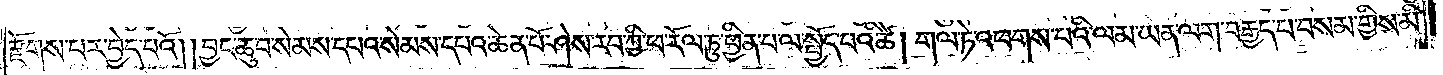རྫོགས་པར་བྱེད་པའོ། །བྱང་ཆུབ་སེམས་དཔའ་སེམས་དཔའ་ཆེན་པོ་ཤེས་རབ་ཀྱི་ཕ་རོལ་ཏུ་ཕྱིན་པ་ལ་སྤྱོད་པའི་ཚེ། གལ་ཏེ་འཕགས་པའི་ལམ་ཡན་ལག་བརྒྱད་པ་བསམ་གྱིས་མི་
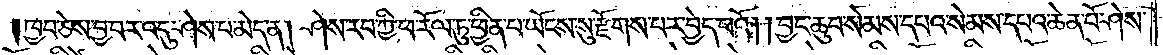ཁྱབ་ཅེས་བྱ་བར་འདུ་ཤེས་པ་མེད་ན། ཤེས་རབ་ཀྱི་ཕ་རོལ་ཏུ་ཕྱིན་པ་ཡོངས་སུ་རྫོགས་པར་བྱེད་པའོ། །བྱང་ཆུབ་སེམས་དཔའ་སེམས་དཔའ་ཆེན་པོ་ཤེས་
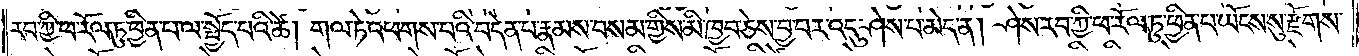རབ་ཀྱི་ཕ་རོལ་ཏུ་ཕྱིན་པ་ལ་སྤྱོད་པའི་ཚེ། གལ་ཏེ་འཕགས་པའི་བདེན་པ་རྣམས་བསམ་གྱིས་མི་ཁྱབ་ཅེས་བྱ་བར་འདུ་ཤེས་པ་མེད་ན། ཤེས་རབ་ཀྱི་ཕ་རོལ་ཏུ་ཕྱིན་པ་ཡོངས་སུ་རྫོགས་
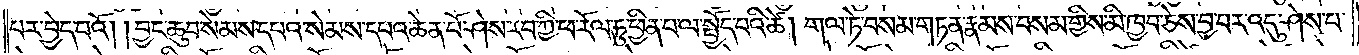པར་བྱེད་པའོ། །བྱང་ཆུབ་སེམས་དཔའ་སེམས་དཔའ་ཆེན་པོ་ཤེས་རབ་ཀྱི་ཕ་རོལ་ཏུ་ཕྱིན་པ་ལ་སྤྱོད་པའི་ཚེ། གལ་ཏེ་བསམ་གཏན་རྣམས་བསམ་གྱིས་མི་ཁྱབ་ཅེས་བྱ་བར་འདུ་ཤེས་པ་
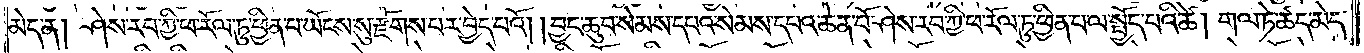མེད་ན། ཤེས་རབ་ཀྱི་ཕ་རོལ་ཏུ་ཕྱིན་པ་ཡོངས་སུ་རྫོགས་པར་བྱེད་པའོ། །བྱང་ཆུབ་སེམས་དཔའ་སེམས་དཔའ་ཆེན་པོ་ཤེས་རབ་ཀྱི་ཕ་རོལ་ཏུ་ཕྱིན་པ་ལ་སྤྱོད་པའི་ཚེ། གལ་ཏེ་ཚད་མེད་
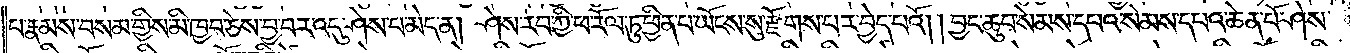པ་རྣམས་བསམ་གྱིས་མི་ཁྱབ་ཅེས་བྱ་བར་འདུ་ཤེས་པ་མེད་ན། ཤེས་རབ་ཀྱི་ཕ་རོལ་ཏུ་ཕྱིན་པ་ཡོངས་སུ་རྫོགས་པར་བྱེད་པའོ། །བྱང་ཆུབ་སེམས་དཔའ་སེམས་དཔའ་ཆེན་པོ་ཤེས་
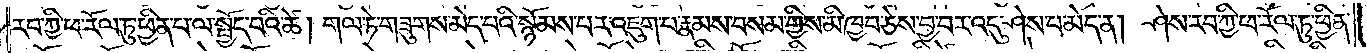རབ་ཀྱི་ཕ་རོལ་ཏུ་ཕྱིན་པ་ལ་སྤྱོད་པའི་ཚེ། གལ་ཏེ་གཟུགས་མེད་པའི་སྙོམས་པར་འཇུག་པ་རྣམས་བསམ་གྱིས་མི་ཁྱབ་ཅེས་བྱ་བར་འདུ་ཤེས་པ་མེད་ན། ཤེས་རབ་ཀྱི་ཕ་རོལ་ཏུ་ཕྱིན་
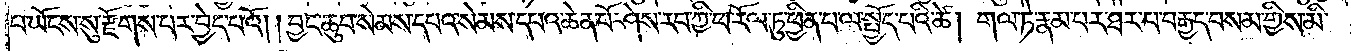པ་ཡོངས་སུ་རྫོགས་པར་བྱེད་པའོ། །བྱང་ཆུབ་སེམས་དཔའ་སེམས་དཔའ་ཆེན་པོ་ཤེས་རབ་ཀྱི་ཕ་རོལ་ཏུ་ཕྱིན་པ་ལ་སྤྱོད་པའི་ཚེ། གལ་ཏེ་རྣམ་པར་ཐར་པ་བརྒྱད་བསམ་གྱིས་མི་
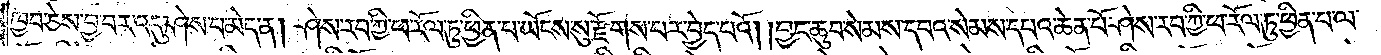ཁྱབ་ཅེས་བྱ་བར་འདུ་ཤེས་པ་མེད་ན། ཤེས་རབ་ཀྱི་ཕ་རོལ་ཏུ་ཕྱིན་པ་ཡོངས་སུ་རྫོགས་པར་བྱེད་པའོ། །བྱང་ཆུབ་སེམས་དཔའ་སེམས་དཔའ་ཆེན་པོ་ཤེས་རབ་ཀྱི་ཕ་རོལ་ཏུ་ཕྱིན་པ་ལ་
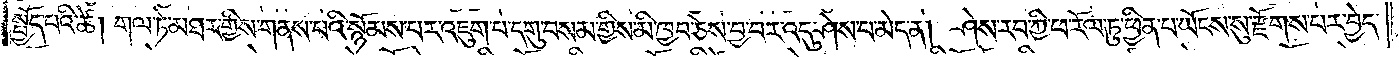སྤྱོད་པའི་ཚེ། གལ་ཏེ་མཐར་གྱིས་གནས་པའི་སྙོམས་པར་འཇུག་པ་དགུ་བསམ་གྱིས་མི་ཁྱབ་ཅེས་བྱ་བར་འདུ་ཤེས་པ་མེད་ན། ཤེས་རབ་ཀྱི་ཕ་རོལ་ཏུ་ཕྱིན་པ་ཡོངས་སུ་རྫོགས་པར་བྱེད་
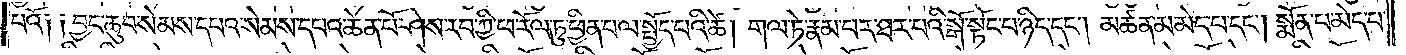པའོ༑ ༑བྱང་ཆུབ་སེམས་དཔའ་སེམས་དཔའ་ཆེན་པོ་ཤེས་རབ་ཀྱི་ཕ་རོལ་ཏུ་ཕྱིན་པ་ལ་སྤྱོད་པའི་ཚེ། གལ་ཏེ་རྣམ་པར་ཐར་པའི་སྒོ་སྟོང་པ་ཉིད་དང༌། མཚན་མ་མེད་པ་དང༌། སྨོན་པ་མེད་པ་
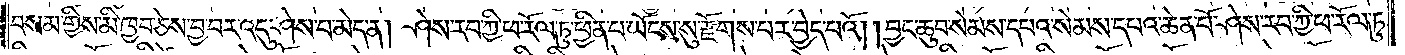བསམ་གྱིས་མི་ཁྱབ་ཅེས་བྱ་བར་འདུ་ཤེས་པ་མེད་ན། ཤེས་རབ་ཀྱི་ཕ་རོལ་ཏུ་ཕྱིན་པ་ཡོངས་སུ་རྫོགས་པར་བྱེད་པའོ། །བྱང་ཆུབ་སེམས་དཔའ་སེམས་དཔའ་ཆེན་པོ་ཤེས་རབ་ཀྱི་ཕ་རོལ་ཏུ་
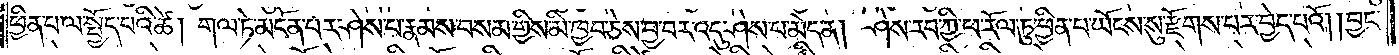ཕྱིན་པ་ལ་སྤྱོད་པའི་ཚེ། གལ་ཏེ་མངོན་པར་ཤེས་པ་རྣམས་བསམ་གྱིས་མི་ཁྱབ་ཅེས་བྱ་བར་འདུ་ཤེས་པ་མེད་ན། ཤེས་རབ་ཀྱི་ཕ་རོལ་ཏུ་ཕྱིན་པ་ཡོངས་སུ་རྫོགས་པར་བྱེད་པའོ། །བྱང་
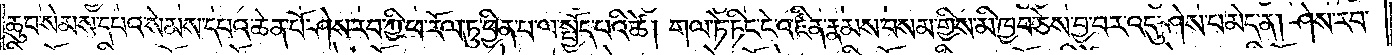ཆུབ་སེམས་དཔའ་སེམས་དཔའ་ཆེན་པོ་ཤེས་རབ་ཀྱི་ཕ་རོལ་ཏུ་ཕྱིན་པ་ལ་སྤྱོད་པའི་ཚེ། གལ་ཏེ་ཏིང་ངེ་འཛིན་རྣམས་བསམ་གྱིས་མི་ཁྱབ་ཅེས་བྱ་བར་འདུ་ཤེས་པ་མེད་ན། ཤེས་རབ་
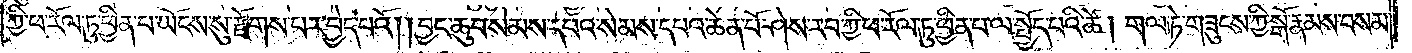ཀྱི་ཕ་རོལ་ཏུ་ཕྱིན་པ་ཡོངས་སུ་རྫོགས་པར་བྱེད་པའོ། །བྱང་ཆུབ་སེམས་དཔའ་སེམས་དཔའ་ཆེན་པོ་ཤེས་རབ་ཀྱི་ཕ་རོལ་ཏུ་ཕྱིན་པ་ལ་སྤྱོད་པའི་ཚེ། གལ་ཏེ་གཟུངས་ཀྱི་སྒོ་རྣམས་བསམ་
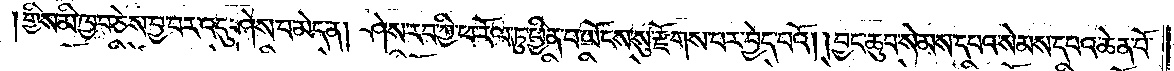གྱིས་མི་ཁྱབ་ཅེས་བྱ་བར་འདུ་ཤེས་པ་མེད་ན། ཤེས་རབ་ཀྱི་ཕ་རོལ་ཏུ་ཕྱིན་པ་ཡོངས་སུ་རྫོགས་པར་བྱེད་པའོ༎  བྱང་ཆུབ་སེམས་དཔའ་སེམས་དཔའ་ཆེན་པོ་
